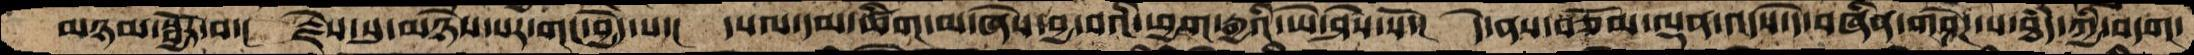མཉམ་སྦྱོར་བ་།   རྗེས་སུ་མཉེས་པར་གང་བྱེད་པ་།   དཔལ་དམ་ཚིག་མ་ཞེས་བྱ་བའི་ཕྱག་རྒྱའི་ཡེ་ཤེས་སོ་།   དེ་ནས་བཅོམ་ལྡན་འདས་དེ་བཞིན་གཤེཌ་པ་ཐཾད་ཀྱི་བདག་
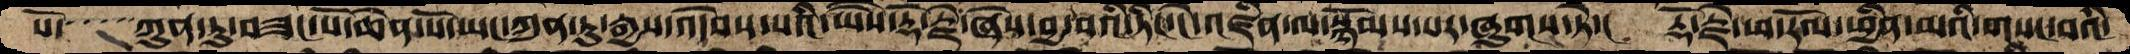པོ་    ཀུན་ཏུ་བཟང་པོ་ཆེན་པོ་ཡང་ཀུན་ཏུ་རྒྱས་འདེབས་པའི་ཡཻས་རྡོ་རྗེ་ཞེས་བྱ་བའི་ཏིང་ངེ་འཛིན་ལ་སྙོམས་པར་ཞུགས་ཏེ་།   རྡོ་རྗེ་ཕ་རོལ་ཕྱིན་མའི་གསང་བའི་
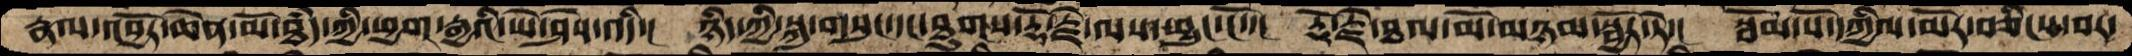རྣལ་འབྱོར་ཆེན་མོ་ཐཾད་ཀྱི་ཕྱག་རྒྱའི་ཡེ་ཤེས་འདི་།   ཉིད་ཀྱི་སྐུ་གསུང་ཐུགས་རྡོ་རྗེ་ལས་ཕྱུང་ངོ་་།  རྡོ་རྗེ་ཐལ་མོ་མཉམ་སྦྱོར་ཏེ་།  སྦོམ་པོ་དཀྱིལ་མོར་བཅིངས་བར་
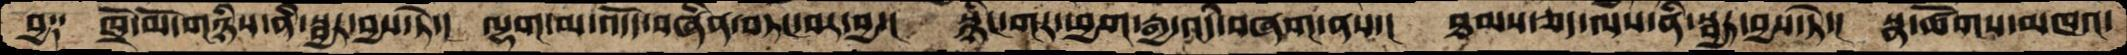བྱ༑    ཁྲོ་མོ་གཉིས་ནི་སྦྱར་བྱས་ཏེ་།   ལྷག་མ་འདོད་བཞིན་བཏང་བར་བྱ་།  སྙིང་གར་ཕྱག་རྒྱ་འདི་བཞག་ནས་།  ཐམས་ཅད་ལས་ནི་སྦྱར་བྱས་ཏེ་།  སྣ་ཚོགས་མཁའ་
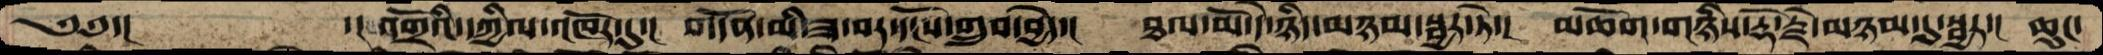༄༅་།            ་། འགྲོའི་དཀྱིལ་འཁོར་དུ་།  གདོད་མི་ཟ་བར་དངོས་གྲུབ་བྱེད་།  ཐལ་མོ་དེ་ཉིད་མཉམ་སྦྱར་ཏེ་།  མཆོག་གཉིས་རྡོ་རྗེ་མཉམ་དུ་སྦྱར་།  ཆུང་
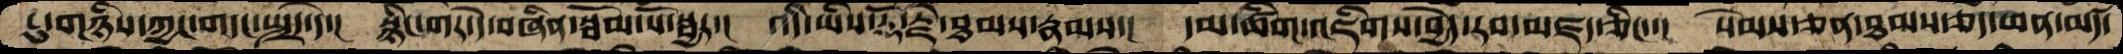ངུ་གཉིས་ཀྱང་གདང་སྤྲད་དེ་།   སྙིང་གར་དེ་བཞིན་སྦོམ་པོ་སྦྱར་།  འདི་ཡིས་རྡོ་རྗེ་ཐམས་རྣམས་།  དམ་ཚིག་འཇིགས་བྱེད་རབ་མཛད་ཅིང་་།  སེམས་ཅན་ཐམས་ཅད་ཡན་མཛད་
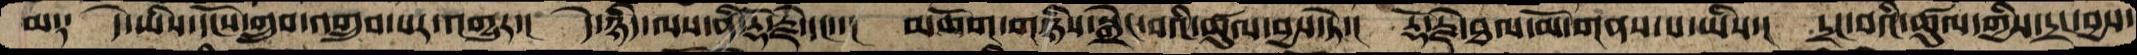མ༑   དེ་ཡིས་དངོས་གྲུབ་འགྲུབ་པར་འགྱུར་།  དེ་ཉིད་ལས་ནི་རྡོ་རྗེ་དང་་།  མཆོག་གཉིས་སྒྲེང་བའི་ཚུལ་བྱས་ཏེ་།  རྡོ་རྗེ་ཐལ་མོ་གནས་པ་ཡིས་།  དྲང་བའི་ཚུལ་གྱིས་དྲང་བྱས་
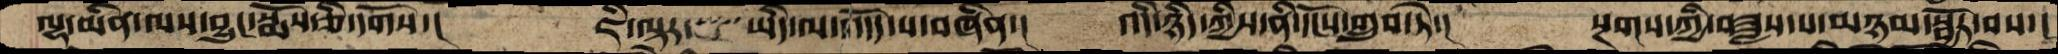ལྷ་མིན་ལས་བྱུང་སྨོས་ཅི་དགོས་།     ཇི་ལྟར་   ཡིད་ལ་འདོད་པ་བཞིན་།  འདི་ཉིད་ཀྱིས་ནི་དདངོས་གྲུབ་ཏེ་།  སྔགས་ཀྱི་བཟླས་པ་མཉམསྦྱོར་བས་།
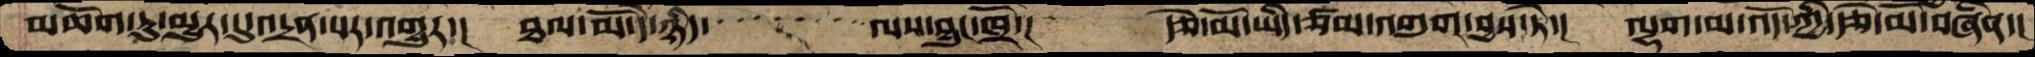མཆོག་ཏུ་མྱུར་དུ་འདྲན་པར་འགྱུར་།  ཐལ་མོ་དེ་ཉིད་    ལས་བྱུང་ཁྲོ་།  རྩེ་མོ་ཡིད་ཙམ་འགུག་བྱས་ཏེ་།  ལྷག་མ་འདོ་ཀྱི་རྩེ་མོ་བཞིན་།
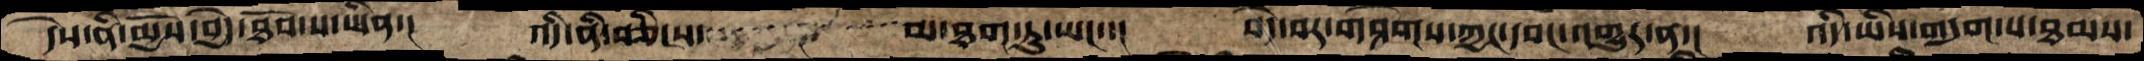དེས་ནི་མྱོས་བྱེད་ཐོབ་པ་ཡིན་།  འདི་ནི་བཅིངས་      མ་ཐག་ཏུ་ཡང་་།  བདེ་བར་གཤེགས་ཀྱང་དབང་འགྱུར་ན་།  འདི་ཡིས་གདུག་པ་ཐམས་
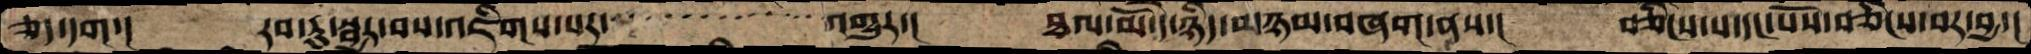ཅད་དག་།  རབ་ཏུ་སྦྱར་བས་འཇིགས་པར་    འགྱུར་།  ཐལ་མོ་དེ་ཉིད་མཉམ་བཞག་ནས་།  བཅིངས་པ་དང་པོས་བཅིངས་པར་བྱ་།
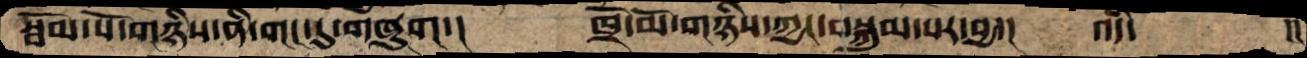སྦོམ་པོ་གཉིས་ནི་གང་དུ་གཞུག་།     ཁྲོ་མོ་གཉིས་ཀྱང་བསྐུམ་པར་བྱ་།     འདི་           །།།
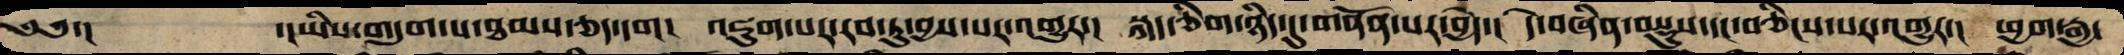༄༅་།      ་།ཡིས་གདུག་པ་ཐམས་ཅད་དག།  འཇུག་པར་རབ་ཏུ་བྱས་པར་འགྱུར་།  སྐད་ཅིག་ཉིད་དུ་གནོན་པར་བྱེད་།  དེ་བཞིན་བསྡུས་དང་བཅིངས་པར་འགྱུར་།  ཕྱག་རྒྱ་
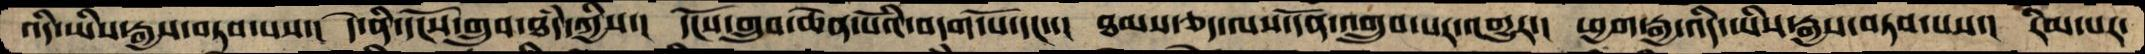འདི་ཡིས་རྒྱས་བཏབ་པས་།  དེ་ནི་དདངོས་གྲུབ་ཐཾད་ཀྱིས་།  དངོས་གྲུབ་ཆེན་པོའི་བདག་པོ་དང་་།  ཐམས་ཅད་ལས་དོན་འགྲུབ་པར་འགྱུར་།  ཕྱག་རྒྱ་འདི་ཡིས་རྒྱས་བཏབ་པས་།  རིམ་པར་
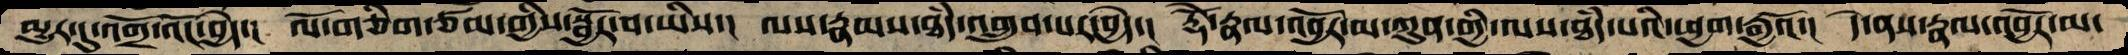མྱུར་དུ་འགྲོ་འོང་བྱེད་།  ལོ་གཅིག་ཙམ་གྱིས་སྦྱོར་བ་ཡིས་།  ལས་རྣམས་ཐཾད་འགྲུབ་པར་བྱེད་།  རྡོེ་རྣལ་འབྱོར་མ་ཀུན་གྱི་ལས་ཐཾད་པའི་ཕྱག་རྒྱའོ་།  དེ་ནས་རྣལ་འབྱོར་མ་
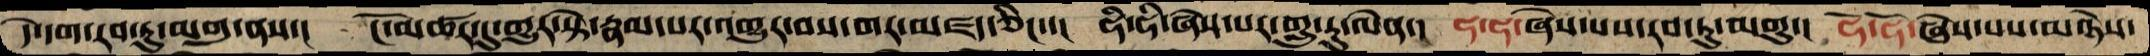དེ་དག་རབ་ཏུ་མགུ་ནས་།  ངོ་མཚར་དུ་གྱུར་སྟེ་རྣམ་པར་འགྱུར་བས་གར་མཛད་ཅིང་་།  ཧི་ཧི་ཞེས་པར་གླུ་རུ་ལེན་།  ཧ་ཧ་ཞེས་པས་རབ་ཏུ་མགུ་།  ཧོ་ཧོ་ཞེས་པས་མཉེས་
